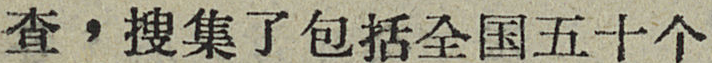查，搜集了包括全国五十个
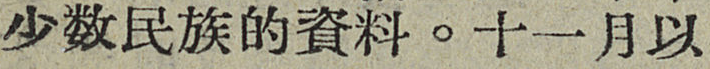少数民族的資料。十一月以
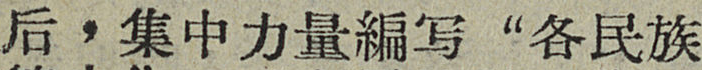后，集中力量編写“各民族
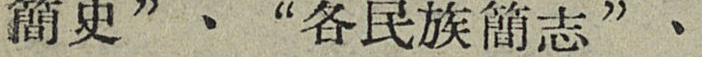簡史”、“各民族簡志”、
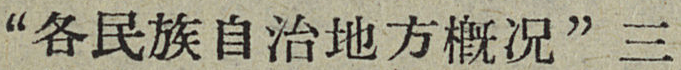“各民族自治地方概况”三
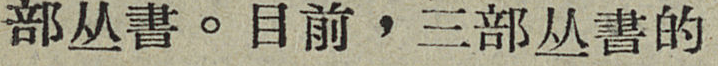部丛書。目前，三部丛書的
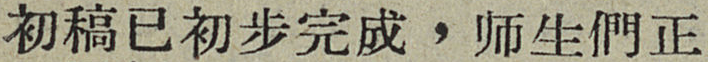初稿已初步完成，师生們正
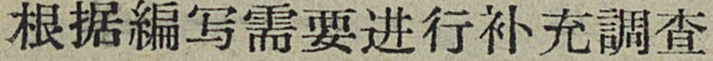根据編写需要进行补充調查
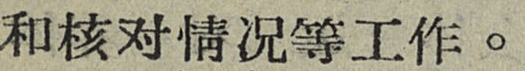和核对情况等工作。
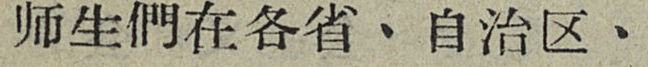师生們在各省、自治区、
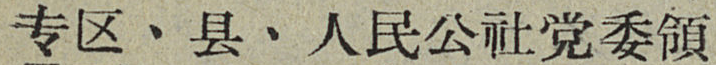专区、县、人民公社党委領
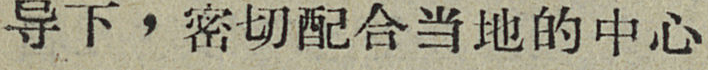导下，密切配合当地的中心
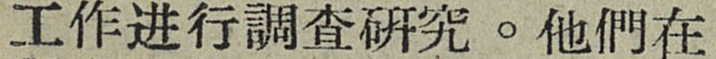工作进行調查研究。他們在
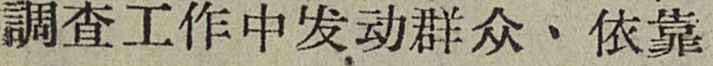調查工作中发动群众、依靠
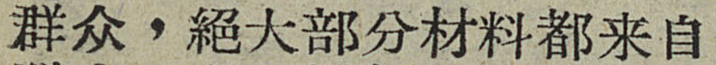群众，絕大部分材料都来自
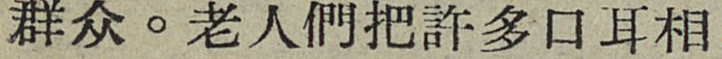群众。老人們把許多口耳相
